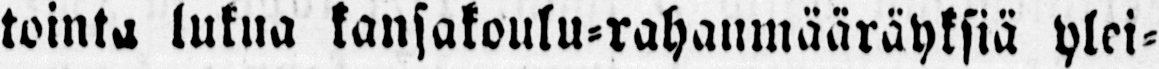tointa lukua kansakoulu-rahanmääräyksiä ylei-
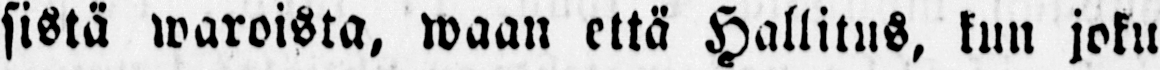sistä waroista, waan että Hallitus, kun joku
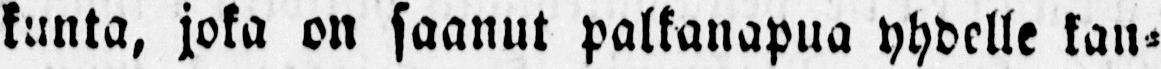kunta, joka on saanut palkanapua yhdelle kan-
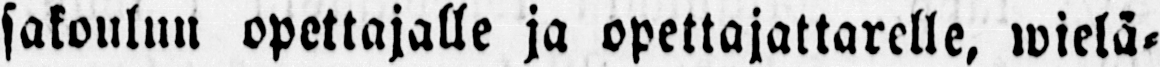sakoulun opettajalle ja opettajattarelle, wielä-
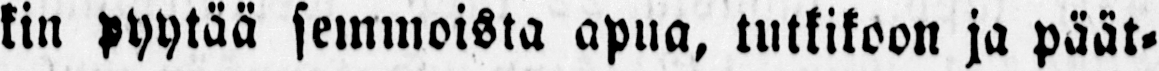kin pyytää semmoista apua, tutkikoon ja päät-
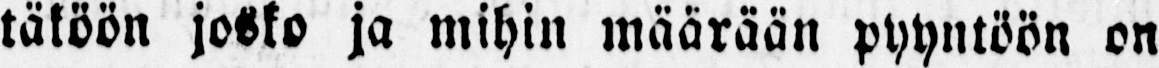täköön josko ja mihin määrään pyyntöön on
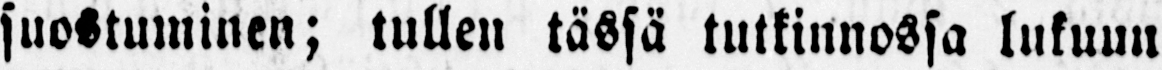suostuminen; tullen tässä tutkinnossa lukuun
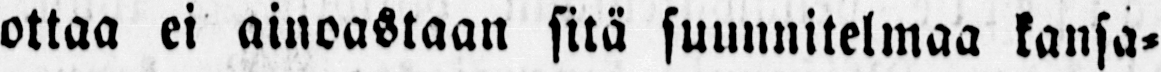ottaa ei ainoastaan sitä suunnitelmaa kansa-
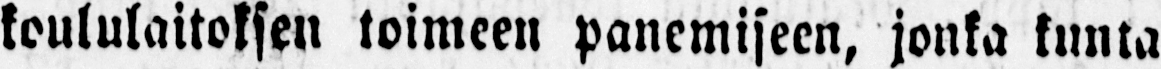koululaitoksen toimeen panemiseen, jonka kunta
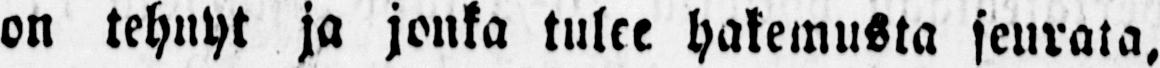on tehnyt ja jonka tulee hakemusta seurata,
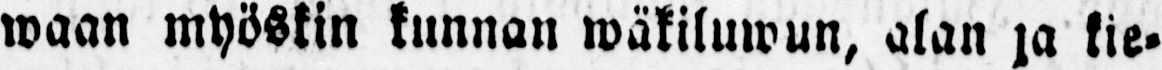waan myöskin kunnan wäkiluwun, alan ja kie-
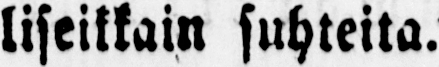liseikkain suhteita.
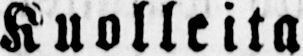Kuolleita.
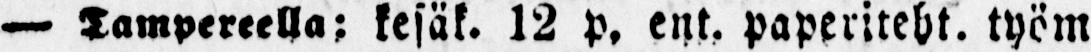— Tampereella; kesäk. 12 p. ent. paperiteht. työm
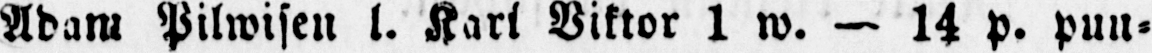Adam Pilwisen l. Kari Viktor 1 w. — 14 P. puu-
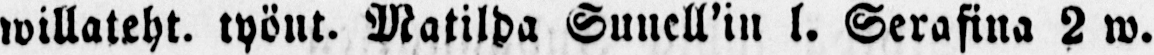willateht. työnt. Matilda Sunell’in l. Serafina 2 w.
